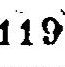119
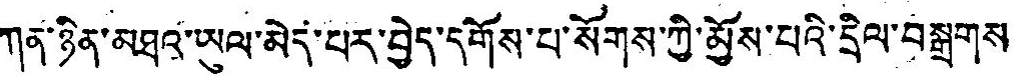ཀན་ཉིན་མཐའ་ཡུལ་མེད་པར་བྱེད་དགོས་པ་སོགས་ཀྱི་མྱོས་པའི་དྲིལ་བསྒྲགས་
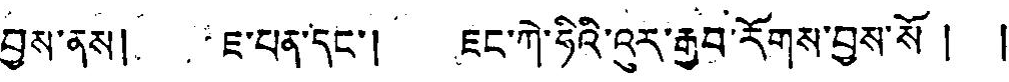བྱས་ན། ཇ་པན་དང་། ཇང་ཀེ་ཧིའི་འུར་རྒྱབ་རོགས་བྱས་སོ། །
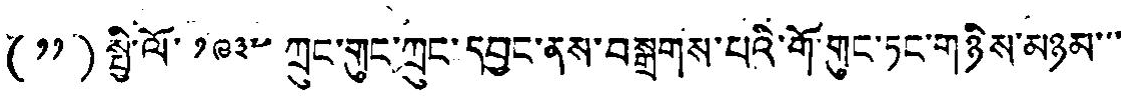(༡༡)སྤྱི་ལོ་༡༩༣༧ ཀྲུང་གུང་ཀྲུང་དབྱང་ནས་བསྒྲགས་པའི་གོ་གུང་ཏང་གཉིས་མཉམ་་་
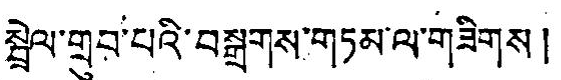སྦྲེལ་གྲུབ་པའི་བསྒྲགས་གཏམ་ལ་གཟིགས།
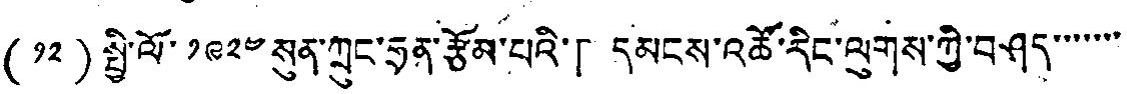(༡༢)སྤྱི་ལོ་༡༩༢༤ སུན་ཀྲུང་ཧྲན་རྩོམ་པའི་「དམངས་འཚོ་རིང་རིང་ལུགས་ཀྱི་བཤད་་་་་་་
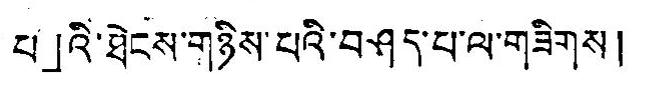པ」འི་ཐེངས་གཉིས་པའི་བཤད་པ་ལ་གཟིགས།
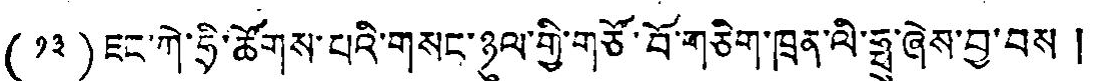(༡༣)ཇང་ཀེ་ཧྲི་ཚོགས་པའི་གསང་ཉུལ་གྱི་གཙོ་བོ་གཅིག་ཁྲན་ལི་ཧྥུ་ཞེས་བྱས་བས།
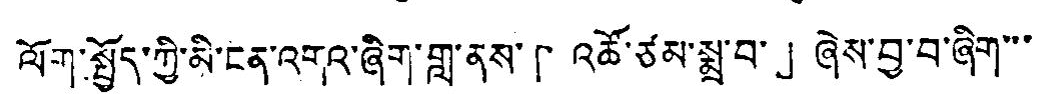ལོག་སྤྱོད་ཀྱི་མི་ངན་འགའ་ཞིག་གླ་ནས་「འཚོ་ཙམ་སྨྲ་བ་」ཞེས་བྱས་བ་ཞིག་་་
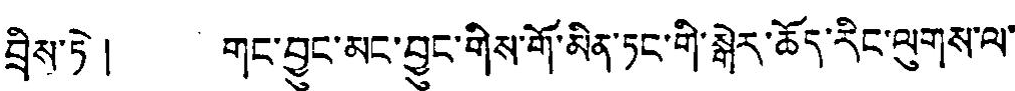བྲིས་ཏེ། གང་བྱུང་མང་བྱུང་གིས་གོ་མིན་ཏང་གི་སྒེར་ཆོད་རིང་ལུགས་ལ་
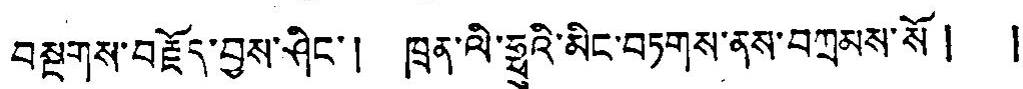བསྔགས་བརྗོད་བྱས་ཤིང་། ཁྲན་ལི་ཧྥུའི་མིང་བཏགས་ནས་བཀྲམས་སོ། །
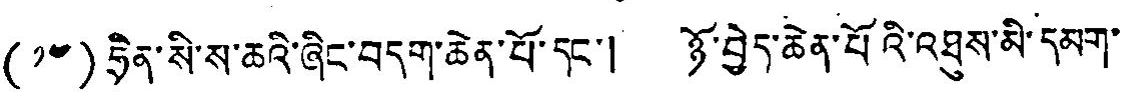(༡༤)ཧྲིན་སི་ས་ཆའི་ཞིང་བདག་ཆེན་པོ་དང་། ཉོ་བྱེད་ཆེན་པོ་འཐུས་མི་དམག་
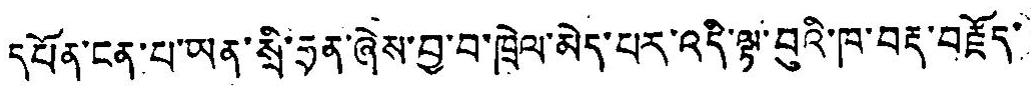དཔོན་ངན་པ་ཡན་སྲི་ཧྲན་ཞེས་བྱ་བ་ཁྲེལ་མེད་པར་འདི་ལྟ་བུའི་ཁ་བརྡ་བརྗོད་
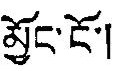མྱོང་ངོ་།
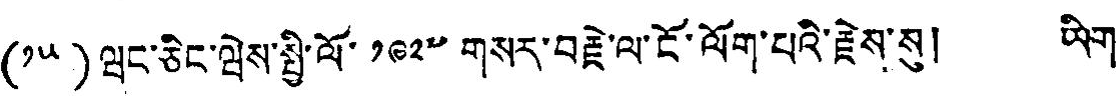(༡༥)ཝང་ཇིང་ཝེས་སྤྱི་ལོ་༡༩༢༧ གསར་བརྗེ་ལ་ངོ་ལོག་པའི་རྗེས་སུ། ཡིག་
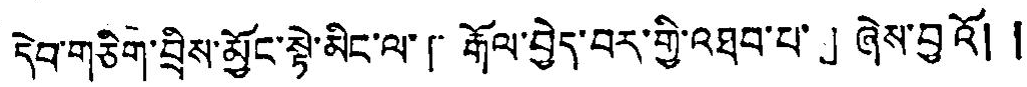དེབ་གཅིག་བྲིས་མྱོང་སྟེ་མིང་ལ་「རྒོལ་བྱེད་བར་གྱི་འཐབ་པ་」ཞེས་བྱའོ། །
